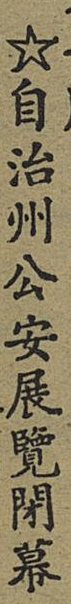☆自治州公安展覽閉幕
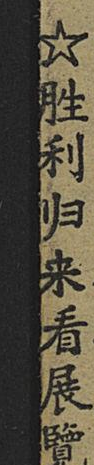☆胜利归来看展覽
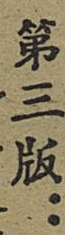第三版：
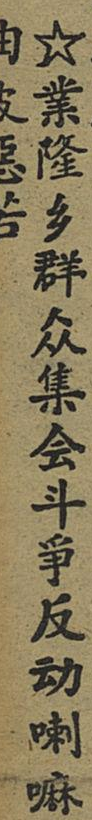☆業隆乡群众集会斗爭反动喇嘛
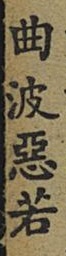曲波惡若
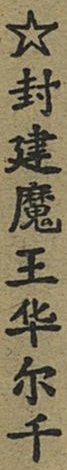☆封建魔王华尔千
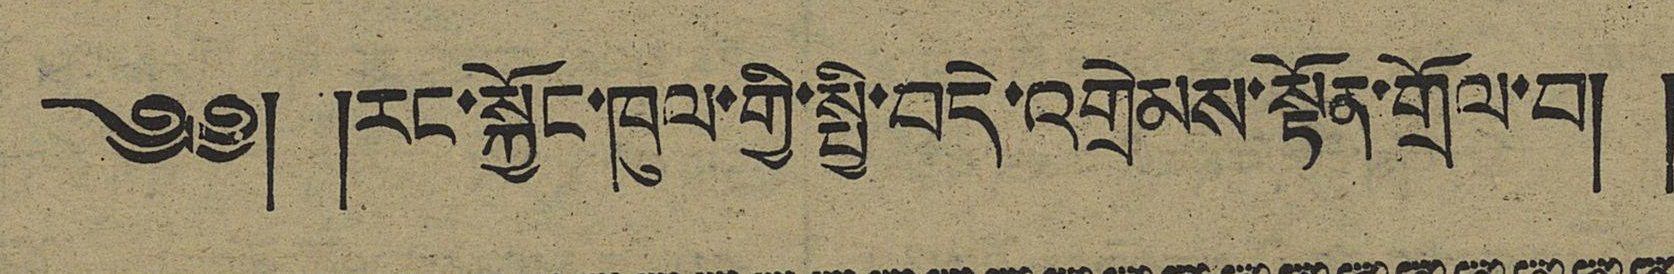༄༅། །རང་སྐྱོང་ཁུལ་གྱི་སྤྱི་བདེ་འགྲེམས་སྟོན་གྲོལ་བ། །
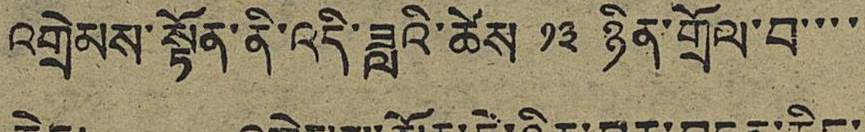འགྲེམས་སྟོན་ནི་འདི་ཟླའི་ཚེས ༡༣ ཉིན་གྲོལ་བ་་་་
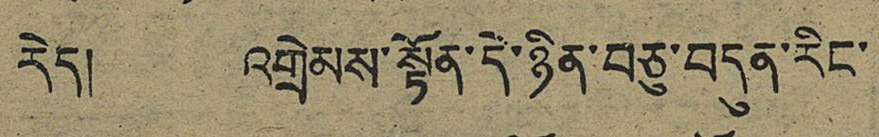རེད། འགྲེམས་སྟོན་དེ་ཉིན་བཅུ་བདུན་རིང་
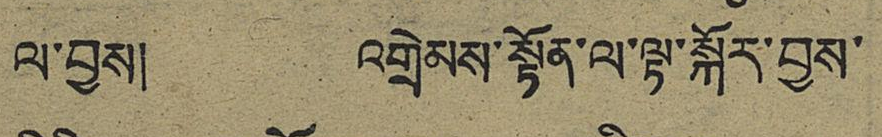ལ་བྱས། འགྲེམས་སྟོན་ལ་ལྟ་སྐོར་བྱས་
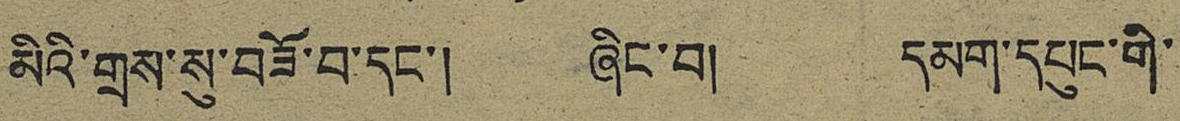མིའི་གྲས་སུ་བཟོ་བ་དང་། ཞིང་བ། དམག་དཔུང་གི་
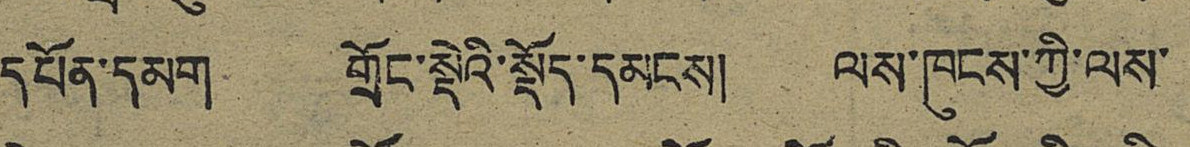དཔོན་དམག གྲོང་སྡེའི་སྡོད་དམངས། ལས་ཁུངས་ཀྱི་ལས་
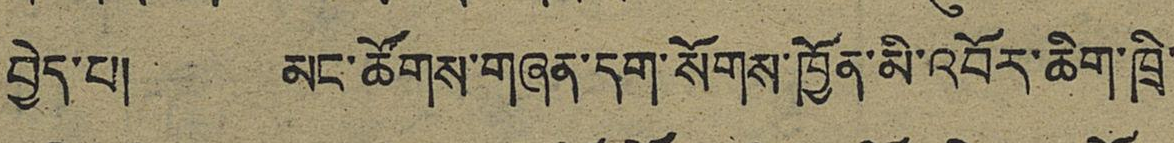བྱེད་པ། མང་ཚོགས་གཞན་དག་སོགས་ཁྱོན་མི་འབོར་ཆིག་ཁྲི
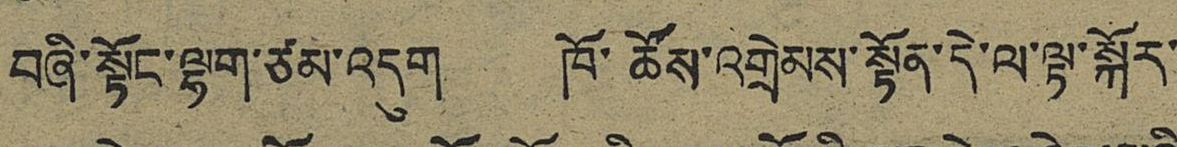བཞི་སྟོང་ལྷག་ཙམ་འདུག ཁོ་ཚོས་འགྲེམས་སྟོན་དེ་ལ་ལྟ་སྐོར་
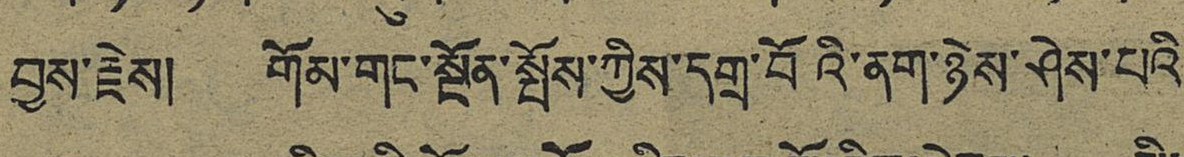བྱས་རྗེས། གོམ་གང་སྔོན་སྤོས་ཀྱིས་དགྲ་བོའི་ནག་ཉེས་ཤེས་པའི
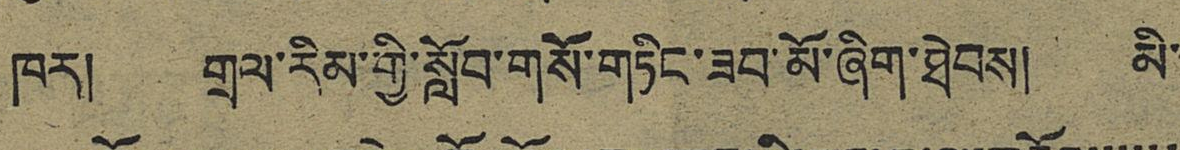ཁར། གྲལ་རིམ་གྱི་སློབ་གསོ་གཏིང་ཟབ་མོ་ཞིག་ཐེབས། མི་
